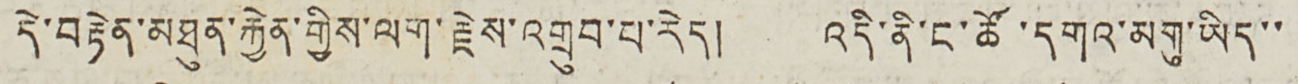དེ་བརྟེན་མཐུན་རྐྱེན་གྱིས་ལག་རྗེས་འགྲུབ་པ་རེད། འདི་ནི་ང་ཚོ་དགའ་མགུ་ཡིད་་
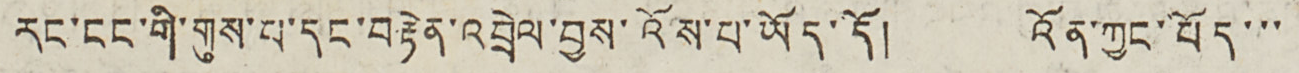རང་ངང་གི་གུས་པ་དང་བརྟེན་འབྲེལ་བྱས་འོས་པ་ཡོད་དོ། འོན་ཀྱང་པོད་་་
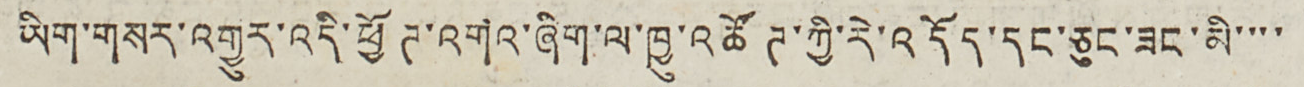ཡིག་གསར་འགྱུར་འདི་ཕྱོཊ་འགའ་ཞིག་ལ་ཁྱུ་འཚོཊ་ཀྱི་རེ་འདོད་དང་ཅུང་ཟང་མི་་་་
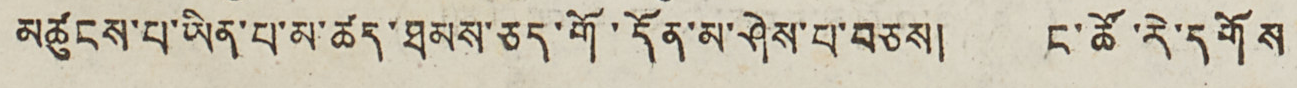མཚུངས་པ་ཡིན་པ་མ་ཚད་ཐམས་ཅད་གོ་དོན་མ་ཤེས་པ་བཅས། ང་ཚོ་རེ་དགོས
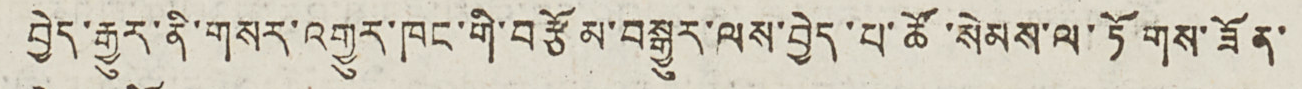བྱེད་རྒྱུར་ནི་གསར་འགྱུར་ཁང་གི་བརྩོམ་བསྒྱུར་ལས་བྱེད་པ་ཚོ་སེམས་ལ་ཏོགས་ཟོན་
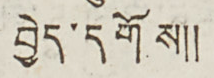བྱེད་དགོས༎
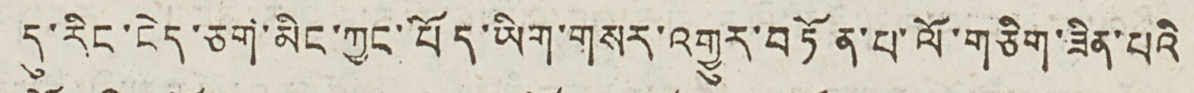ད་རིང་ངེད་ཅག་མིང་ཀྱང་པོད་ཡིག་གསར་འགྱུར་བཏོན་པ་ལོ་གཅིག་ཟིན་པའི
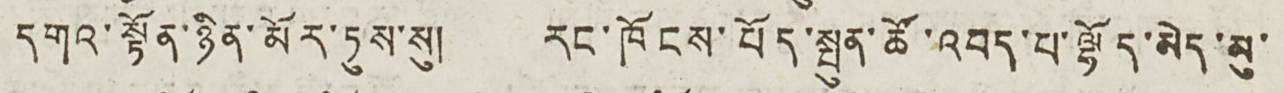དགའ་སྟོན་ཉིན་མོར་ཏུས་སུ། རང་ཁོངས་པོད་སྤུན་ཚོ་འབད་པ་ལྷོད་མེད་མུ་
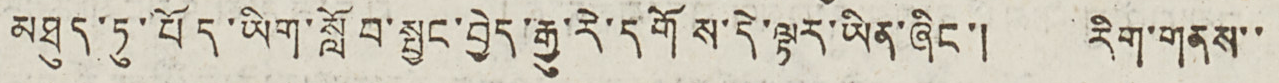མཐུད་ཏུ་པོད་ཡིག་སློབ་སྦྱང་བྱེད་རྒྱུ་རེ་དགོས་དེ་ལྟར་ཡིན་ཞིང་། རིག་གནས་་
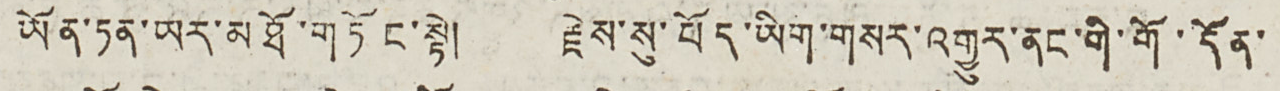ཡོན་ཏན་ཡར་མཐོ་གཏོང་སྟེ། རྗེས་སུ་པོད་ཡིག་གསར་འགྱུར་ནང་གི་གོ་དོན་
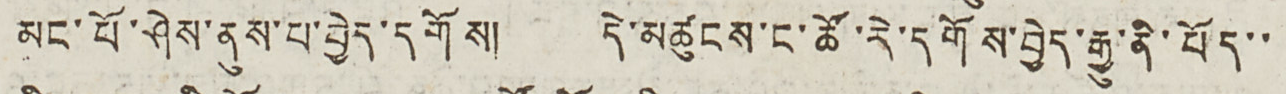མང་པོ་ཤེས་ནུས་པ་བྱེད་དགོས། དེ་མཚུངས་ང་ཚོ་རེ་དགོས་བྱེད་རྒྱུ་ནི་པོད་་
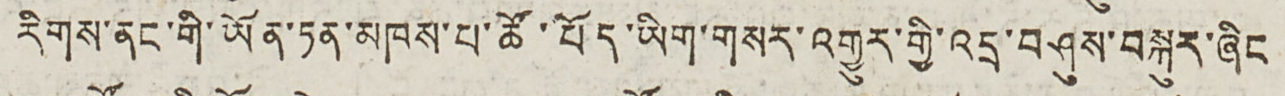རིགས་ནང་གི་ཡོན་ཏན་མཁས་པ་ཚོ་པོད་ཡིག་གསར་འགྱུར་གྱི་འདྲ་བཤུས་བསྐུར་ཞིང
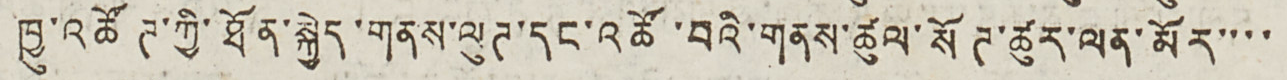ཁྱུ་འཚོཊ་ཀྱི་ཐོན་སྐྱེད་གནས་ལུཊ་དང་འཚོ་བའི་གནས་ཚུལ་སོཊ་ཚུར་ལན་མོར་་་་
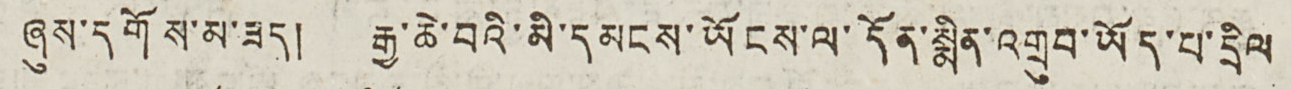ཞུས་དགོས་མ་ཟད། རྒྱ་ཆེ་བའི་མི་དམངས་ཡོངས་ལ་དོན་སྨིན་འགྲུབ་ཡོད་པ་དྲིལ
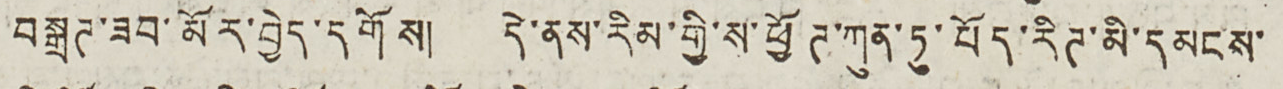བསྒྲཊ་ཟབ་མོར་བྱེད་དགོས། དེ་ནས་རིམ་གྱི་ས་ཕྱོཊ་ཀུན་ཏུ་པོད་རིཊ་མི་དམངས་
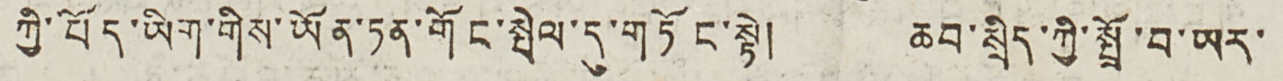ཀྱི་པོད་ཡིག་གིས་ཡོན་ཏན་གོང་སྤེལ་དུ་གཏོང་སྟེ། ཆབ་སྲིད་ཀྱི་སྤྲོ་བ་ཡར་
